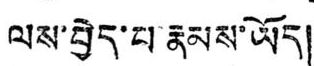ལས་བྱེད་པ་རྣམས་ཡོད།
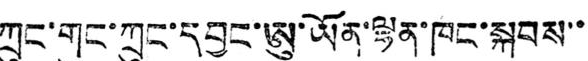ཀྲུང་གུང་ཀྲུང་དབྱང་ཨུ་ཡོན་ལྷན་ཁང་སྐབས་་
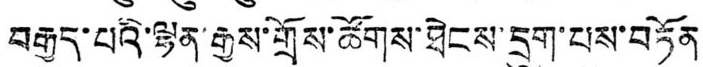བརྒྱད་པའི་ལྷན་རྒྱས་གྲོས་ཚོགས་ཐེངས་དྲུག་པས་བཏོན
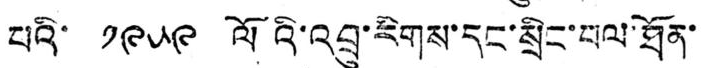པའི་ ༡༩༥༩ ལོའི་འབྲུ་རིགས་དང་སྲིང་བལ་ཐོན་
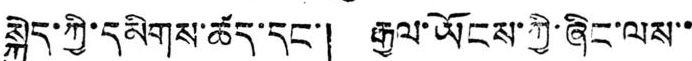སྐྱེད་ཀྱི་དམིགས་ཚད་དང་། རྒྱལ་ཡོངས་ཀྱི་ཞིང་ལས་་
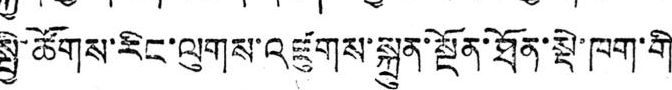སྤྱི་ཚོགས་རིང་ལུགས་འཛུགས་སྐྲུན་སྔོན་ཐོན་སྡེ་ཁག་གི་
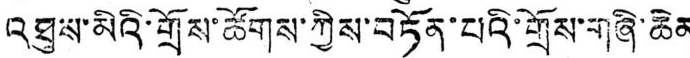འཐུས་མིའི་གྲོས་ཚོགས་ཀྱིས་བཏོན་པའི་གྲོས་གཞི་ཆེན
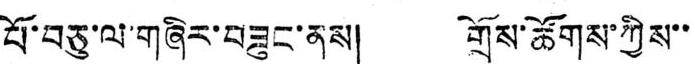པོ་བཅུ་ལ་གཞིར་བཟུང་ནས། གྲོས་ཚོགས་ཀྱིས་་
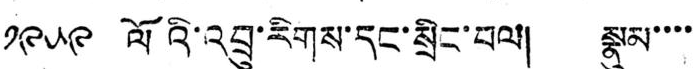༡༩༥༩ ལོའི་འབྲུ་རིགས་དང་སྲིང་བལ། སྣུམ་་་་
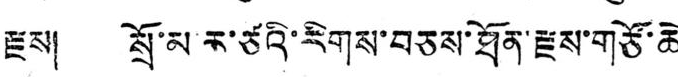རྫས། སྲོ་མ ར་ཙའི་རིགས་བཅས་ཐོན་རྫས་གཙོ་ཆེ་
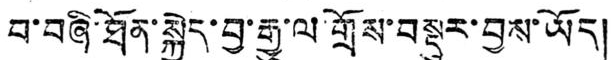བ་བཞི་ཐོན་སྐྱེད་བྱ་རྒྱུ་ལ་གྲོས་བསྡུར་བྱས་ཡོད།
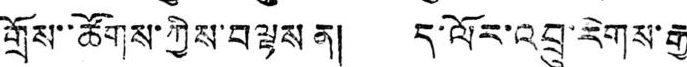གྲོས་་ཚོགས་ཀྱིས་བལྟས ན། ད་ལོར་འབྲུ་རིགས་རྒྱ
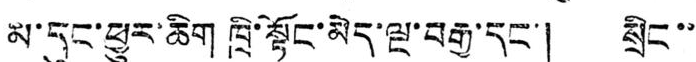མ་དུང་ཕྱུར་ཆིག ཁྲི་སྟོང་མེད་ལྔ་བརྒྱ་དང་། སྲིང་་
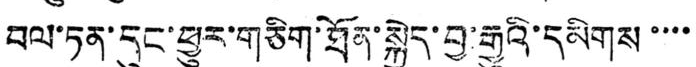བལ་ཏན་དུང་ཕྱུར་གཅིག་ཐོན་སྐྱེད་བྱ་རྒྱུའི་དམིགས་་་་
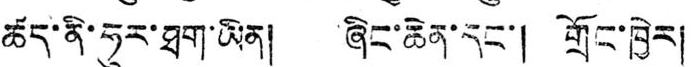ཚད་ནི་ཧུར་ཐག་ཡིན། ཞིང་ཆེན་དང་། གྲོང་ཁྱེར།
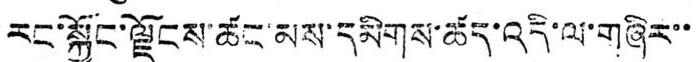རང་སྐྱོང་ལྗོངས་ཚང་མས་དམིགས་ཚད་འདི་ལ་གཞིར་་
